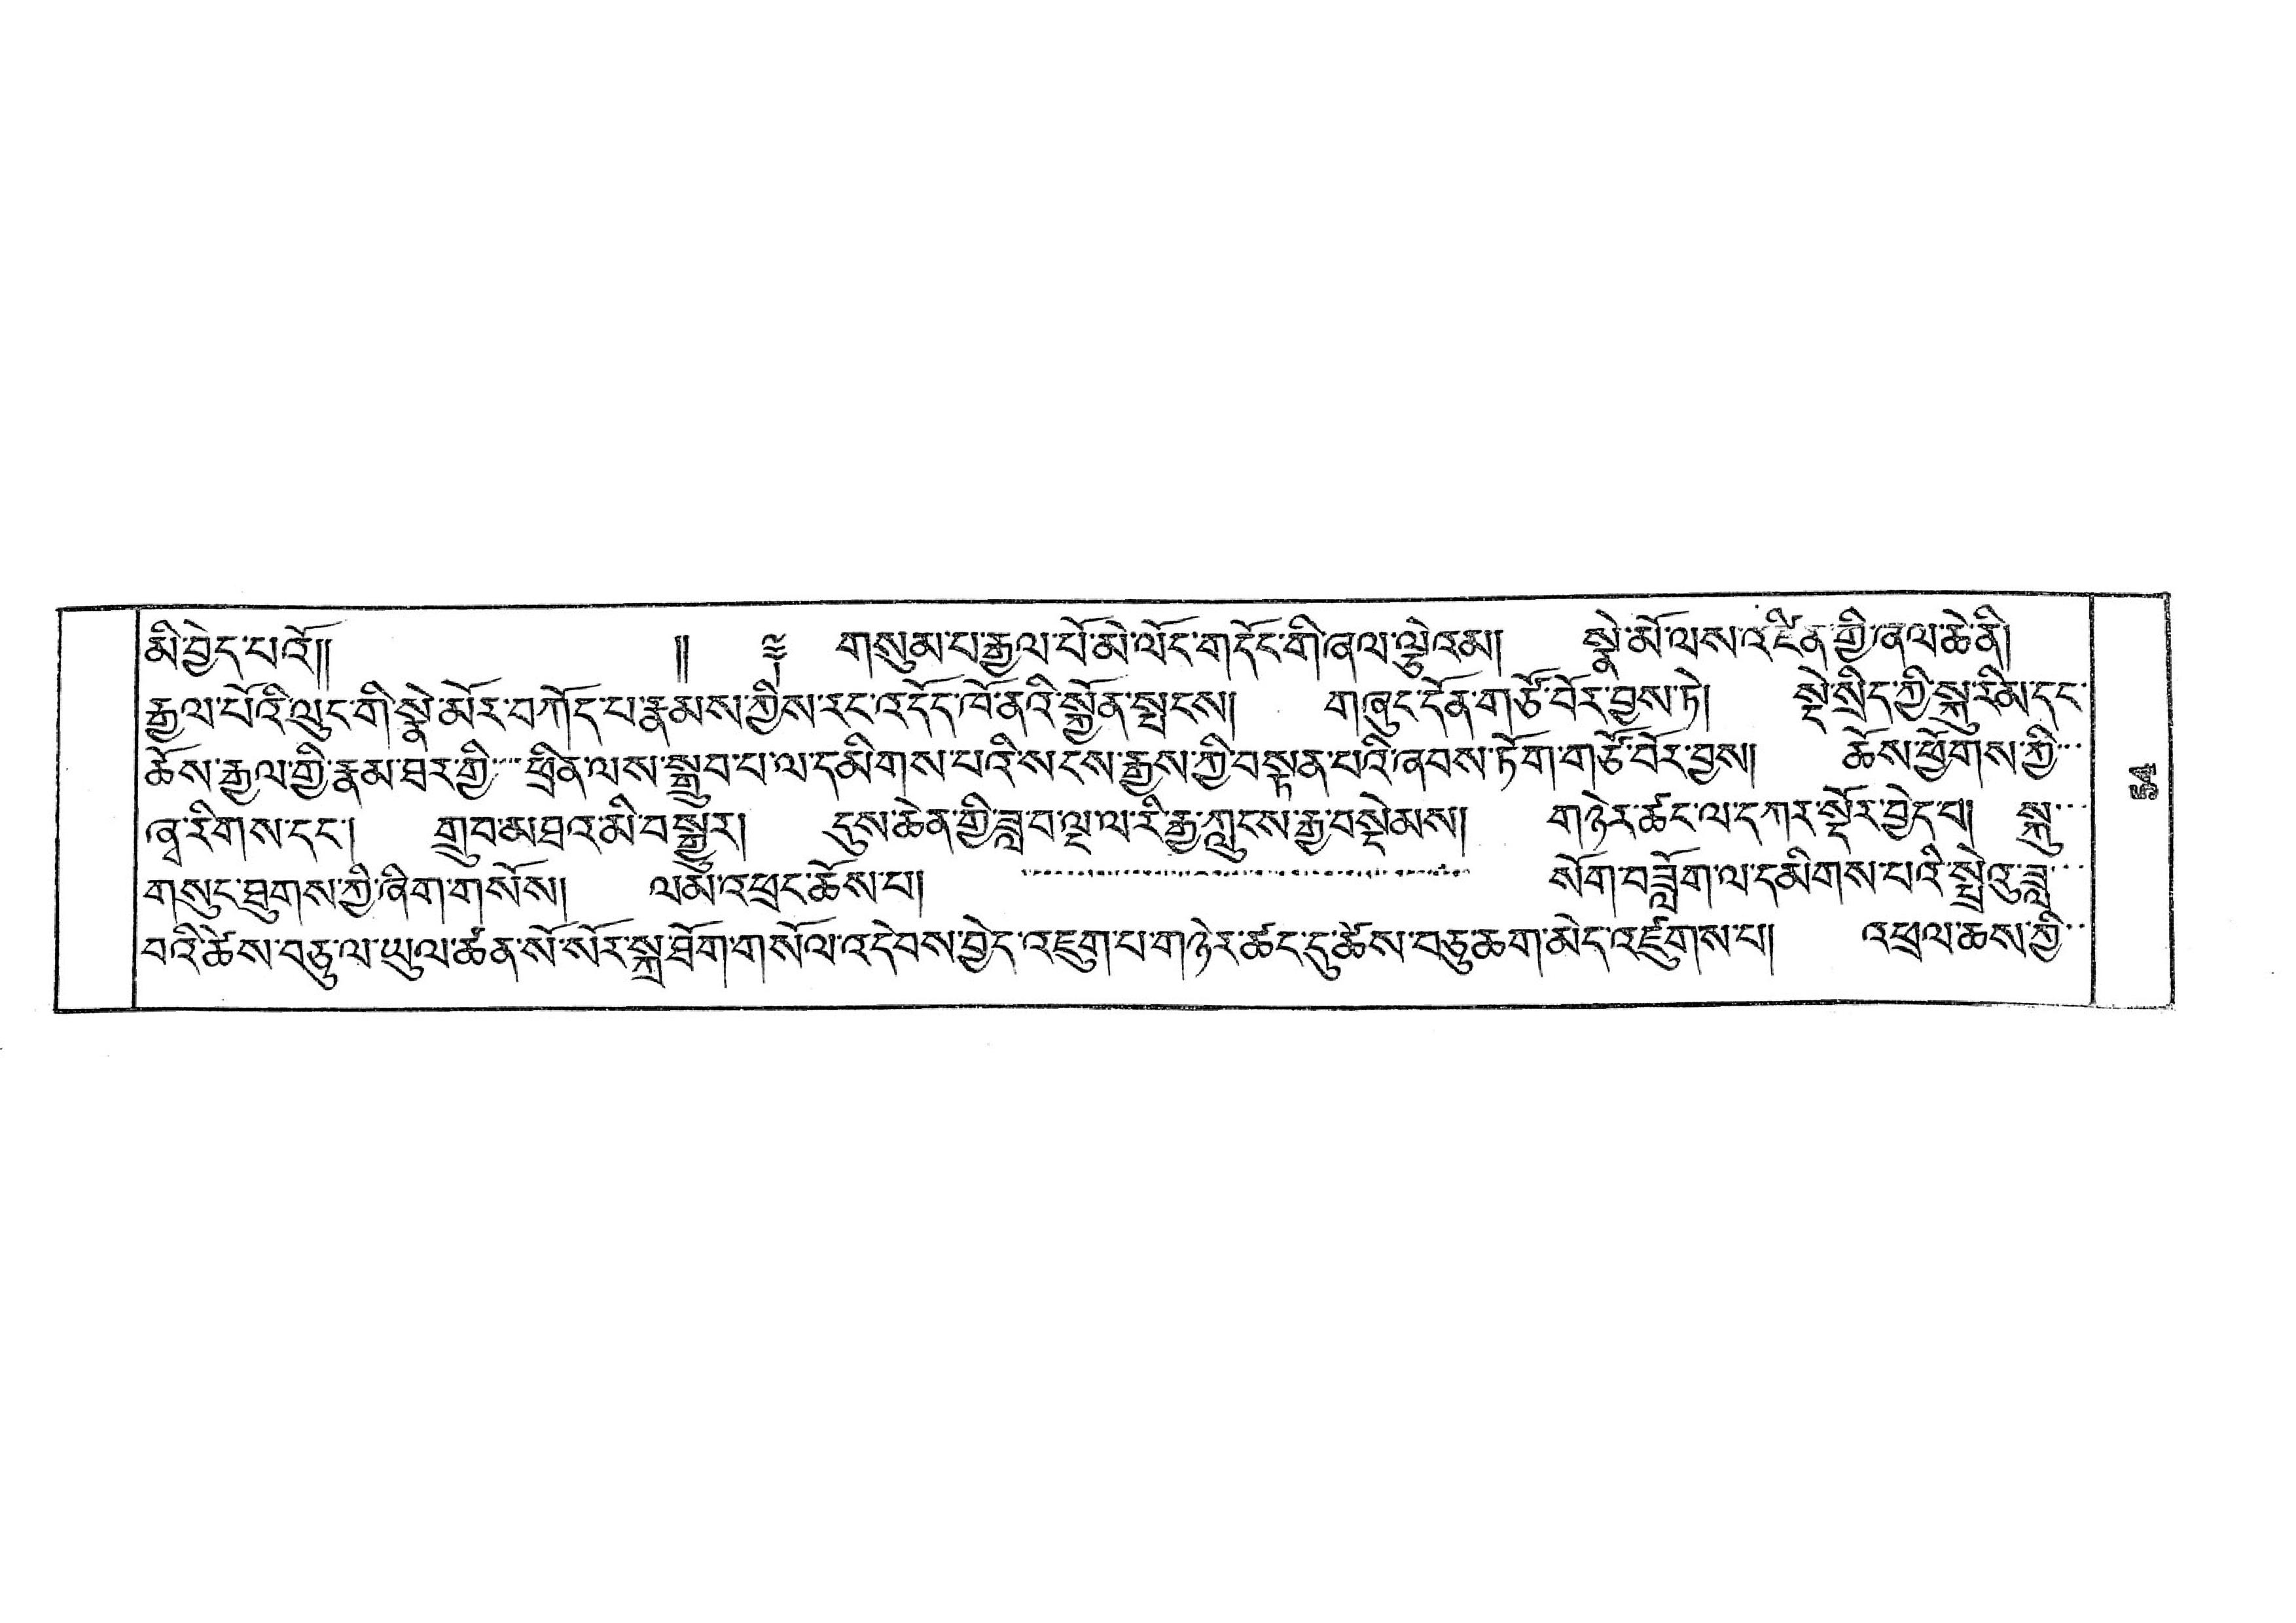མི་བྱེད་པའོ།།  །། ༈ གསུམ་པ་རྒྱལ་མ་ལོང་གདོང་གི་ཞལ་ལྕེའམ། སྣེ་མོ་ལས་འཛིན་གྱི་ཞལ་ཆེ་ནི།
རྒྱལ་པོའི་ལུང་གི་སྣེ་མོར་བཀོད་པ་རྣམས་ཀྱིས་རང་འདོད་ཁོ་ནའི་སྐྱོན་སྤངས། གཞུང་དོན་གཙོ་བོར་བྱས་ཏེ། སྡེ་སྲིད་ཀྱི་སྐུ་རིམ་དང་
ཆོས་རྒྱལ་གྱི་རྣམ་ཐར་གྱི་་་ཕྲིན་ལས་སྒྲུབ་པ་ལ་དམིགས་པའི་སངས་རྒྱས་ཀྱི་བསྟན་པའི་ཞབས་ཏོག་གཙོ་བོར་བྱས། ཆོས་ཕྱོགས་ཀྱི་་་
ཞྭ་རིགས་དང་། གྲུབ་མཐའ་མི་བསྒྱུར། དུས་ཆེན་གྱི་ཟླ་བ་ལྔ་ལ་རི་རྒྱ་ཀླུངས་རྒྱ་བསྡེམས། གཉེར་ཚང་ལ་དཀར་སྡོར་བྱེད་བ། སྐུ་་་
གསུང་ཐུགས་ཀྱི་ཞིག་གསོས། ལམ་འཕྲང་ཆོས་པ། ་་་་་་་་་་་་་་་་་་་་་་་་་་་་་་་་ སོག་བཟློག་ལ་དམིགས་པའི་སྤྲེའུ་ཟླ་་་
བའི་ཚེས་བཅུ་ལ་ཡུལ་ཚན་སོ་སོར་སྐྲ་ཐོག་གསོལ་འདེབས་བྱེད་འཇུག་པ་གཉེར་ཚང་དུ་ཚེས་བཅུ་ཆག་མེད་འཛུགས་པ། འཕྲལ་ཆས་ཀྱི་་
